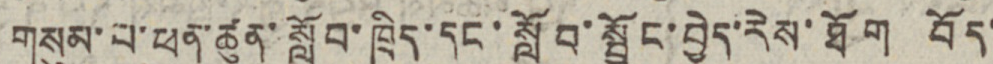གསུམ་པ་ཕན་ཚུན་སློབ་ཁྲིད་དང་སློབ་སྦྱོང་བྱེད་རེས་ཐོག བོད་
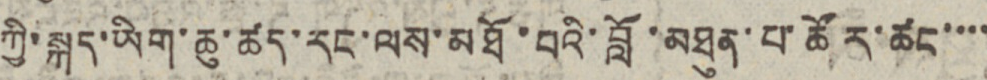ཀྱི་སྐད་ཡིག་ཆུ་ཚད་རང་ལས་མཐོ་བའི་བློ་མཐུན་པ་ཚོར་ཚང་་་་
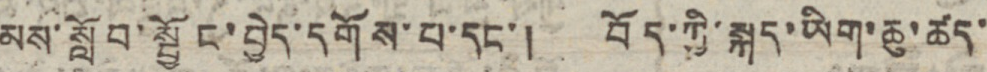མས་སློབ་སྦྱོང་བྱེད་དགོས་པ་དང་། བོད་ཀྱི་སྐད་ཡིག་ཆུ་ཚད་
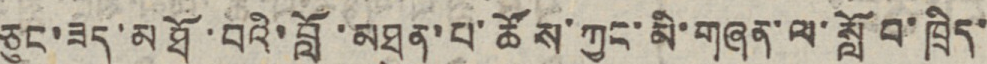ཅུང་ཟད་མཐོ་བའི་བློ་མཐོན་པ་ཚོས་ཀྱང་མི་གཞན་ལ་སློབ་ཁྲིད་
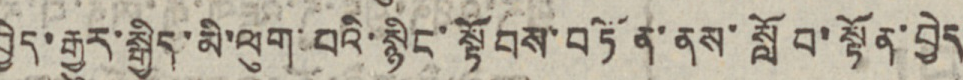བྱེད་རྒྱུར་སྒྱིད་མི་ལུག་པའི་སྙིང་སྟོབས་བཏོན་ནས་སློབ་སྟོན་བྱེད་
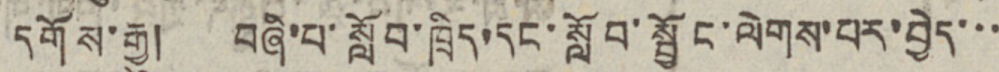དགོས་རྒྱུ། བཞི་པ་སློབ་ཁྲིད་དང་སློབ་སྦྱོང་ལེགས་པར་བྱེད་་་
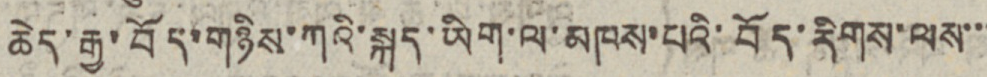ཆེད་རྒྱ་བོད་གཉིས་ཀའི་སྐད་ཡིག་ལ་མཁས་པའི་བོད་རིགས་ལས་་་
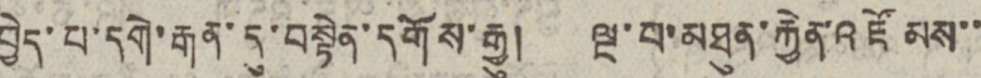བྱེད་པ་དགེ་རྒན་དུ་བསྟེན་དགོས་རྒྱུ། ལྔ་པ་མཐུན་རྐྱེན་འཛོམས་་
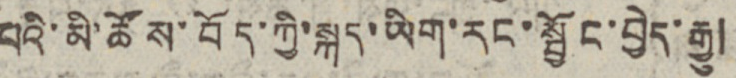པའི་མི་ཚོས་བོད་ཀྱི་སྐད་ཡིག་རང་སྦྱོང་བྱེད་རྒྱུ།
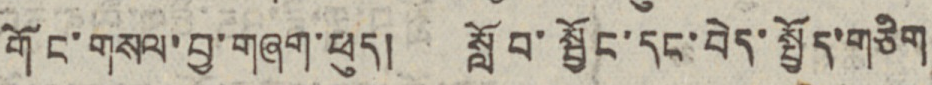གོང་གསལ་བྱ་གཞག་ཕུད། སློབ་སྦྱོང་དང་བེད་སྤྱོད་གཅིག
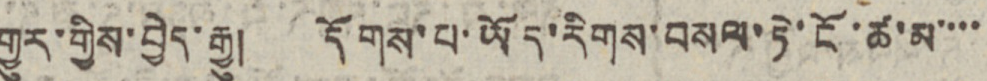གྱུར་གྱིས་བྱེད་རྒྱུ། དོགས་པ་ཡོད་རིགས་བསལ་ཏེ་ངོ་ཚ་མ་་་་
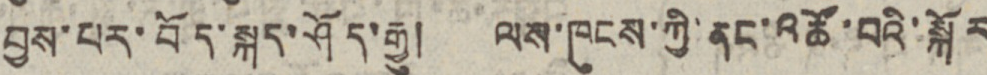བྱས་པར་བོད་སྐད་ཤོད་རྒྱུ། ལས་ཁུངས་ཀྱི་ནང་འཚོ་བའི་སྐོར
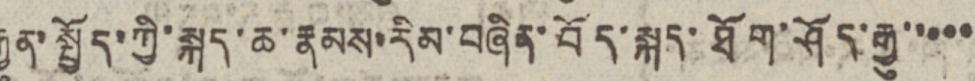རྒྱུན་སྤྱོད་ཀྱི་སྐད་ཆ་རྣམས་རིམ་བཞིན་བོད་སྐད་ཐོག་ཤོད་རྒྱུ་་་་་
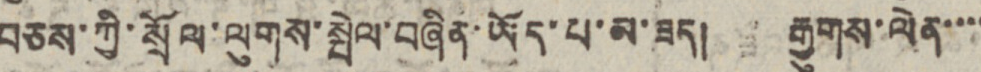བཅས་ཀྱི་སྲོལ་ལུགས་སྤེལ་བཞིན་ཡོད་པ་མ་ཟད། རྒྱུགས་ལེན་་་་
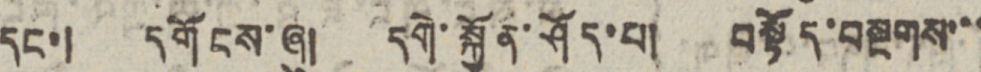དང་། དགོངས་ཞུ། དགེ་སྐྱོན་ཤོད་པ། བསྟོད་བསྔགས་་་
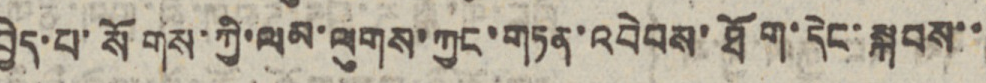བྱེད་པ་སོགས་ཀྱི་ལམ་ལུགས་ཀྱང་གཏན་འབེབས་ཐོག་དེང་སྐབས་་
